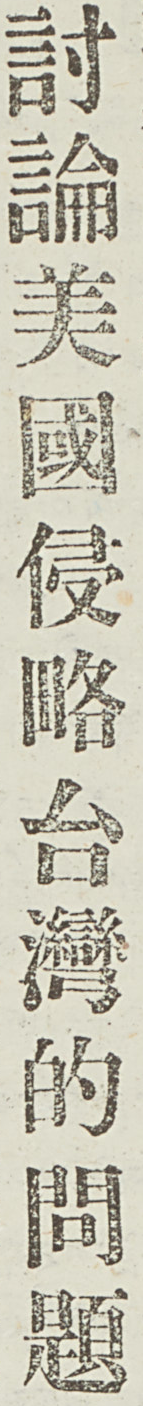討論美國侵略台灣的問題
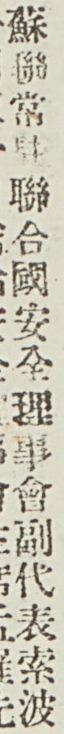蘇聯常駐聯合國安全理事會副代表索波
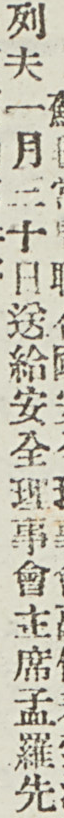列夫一月三十日送給安全理事會主席孟羅先
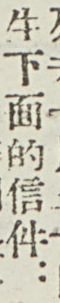省下面的信件：
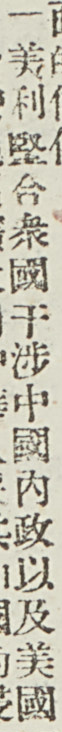「美利堅合衆國干涉中國內政以及美國
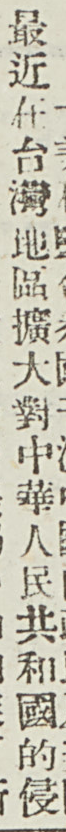最近在台灣地區擴大對中華人民共和國的侵
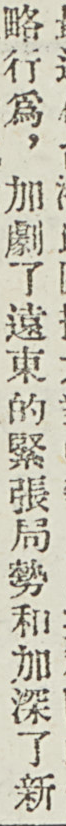略行爲，加劇了遠東的緊張局勢和加深了新
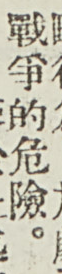戰爭的危險。
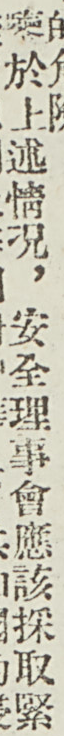鑒於上述情況，安全理事會應該採取緊
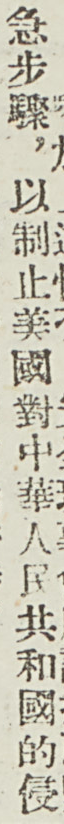急步驟，以制止美國對中華人民共和國的侵
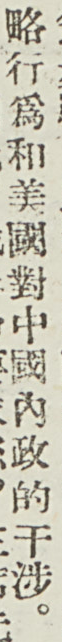略行爲和美國對中國內政的干涉。
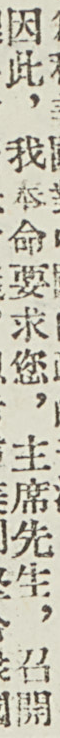因此，我奉命要求您，主席先生，召開
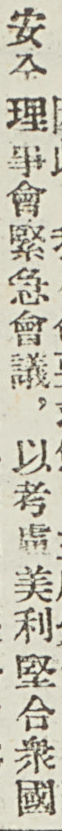安全理事會緊急會議，以考慮美利堅合衆國
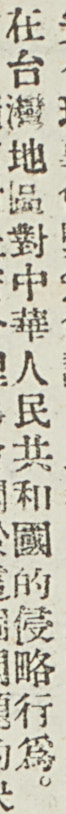在台灣地區對中華人民共和國的侵略行爲。
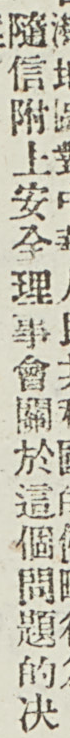隨信附上安全理事會關於這個問題的決
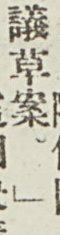議草案。」
